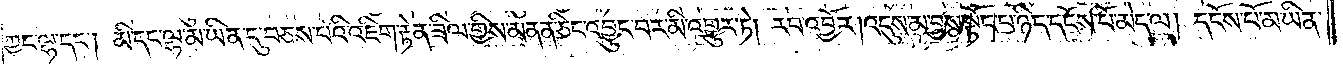ཀྱང་ལྷ་དང༌། མི་དང་ལྷ་མ་ཡིན་དུ་བཅས་པའི་འཇིག་རྟེན་ཟིལ་གྱིས་མནན་ཅིང་འབྱུང་བར་མི་འགྱུར་ཏེ། རབ་འབྱོར། འདུས་མ་བྱས་སྟོང་པ་ཉིད་དངོས་པོ་མེད་ལ། དངོས་པོ་མ་ཡིན་
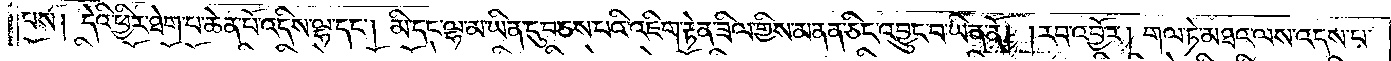པས། དེའི་ཕྱིར་ཐེག་པ་ཆེན་པོ་འདིས་ལྷ་དང༌། མི་དང་ལྷ་མ་ཡིན་དུ་བཅས་པའི་འཇིག་རྟེན་ཟིལ་གྱིས་མནན་ཅིང་འབྱུང་བ་ཡིན་ནོ། །རབ་འབྱོར། གལ་ཏེ་མཐའ་ལས་འདས་པ་
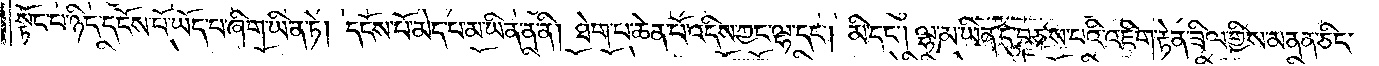སྟོང་པ་ཉིད་དངོས་པོ་ཡོད་པ་ཞིག་ཡིན་ཏེ། དངོས་པོ་མེད་པ་མ་ཡིན་ན་ནི། ཐེག་པ་ཆེན་པོ་འདིས་ཀྱང་ལྷ་དང༌། མི་དང༌། ལྷ་མ་ཡིན་དུ་བཅས་པའི་འཇིག་རྟེན་ཟིལ་གྱིས་མནན་ཅིང་
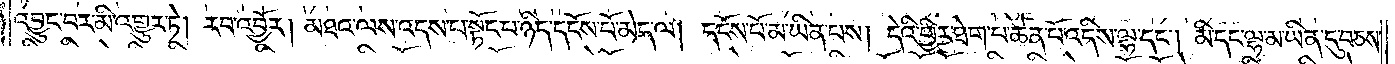འབྱུང་བར་མི་འགྱུར་ཏེ། རབ་འབྱོར། མཐའ་ལས་འདས་པ་སྟོང་པ་ཉིད་དངོས་པོ་མེད་ལ། དངོས་པོ་མ་ཡིན་པས། དེའི་ཕྱིར་ཐེག་པ་ཆེན་པོ་འདིས་ལྷ་དང༌། མི་དང་ལྷ་མ་ཡིན་དུ་བཅས་
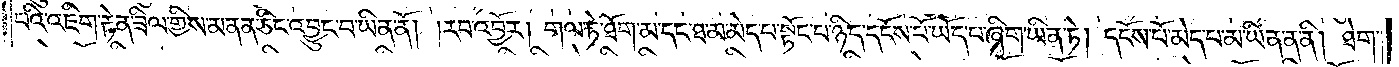པའི་འཇིག་རྟེན་ཟིལ་གྱིས་མནན་ཅིང་འབྱུང་བ་ཡིན་ནོ། །རབ་འབྱོར། གལ་ཏེ་ཐོག་མ་དང་ཐ་མ་མེད་པ་སྟོང་པ་ཉིད་དངོས་པོ་ཡོད་པ་ཞིག་ཡིན་ཏེ། དངོས་པོ་མེད་པ་མ་ཡིན་ན་ནི། ཐེག་
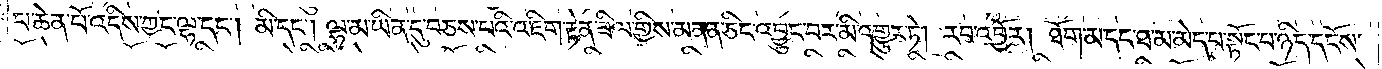པ་ཆེན་པོ་འདིས་ཀྱང་ལྷ་དང༌། མི་དང༌། ལྷ་མ་ཡིན་དུ་བཅས་པའི་འཇིག་རྟེན་ཟིལ་གྱིས་མནན་ཅིང་འབྱུང་བར་མི་འགྱུར་ཏེ། རབ་འབྱོར། ཐོག་མ་དང་ཐ་མ་མེད་པ་སྟོང་པ་ཉིད་དངོས་
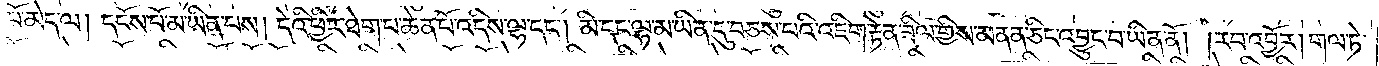པོ་མེད་ལ། དངོས་པོ་མ་ཡིན་པས། དེའི་ཕྱིར་ཐེག་པ་ཆེན་པོ་འདིས་ལྷ་དང༌། མི་དང་ལྷ་མ་ཡིན་དུ་བཅས་པའི་འཇིག་རྟེན་ཟིལ་གྱིས་མནན་ཅིང་འབྱུང་བ་ཡིན་ནོ། །རབ་འབྱོར། གལ་ཏེ་
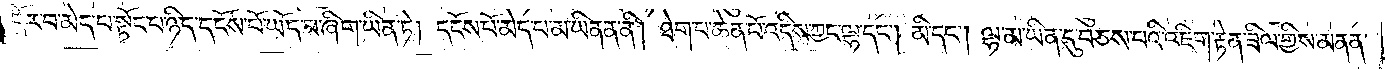དོར་བ་མེད་པ་སྟོང་པ་ཉིད་དངོས་པོ་ཡོད་པ་ཞིག་ཡིན་ཏེ། དངོས་པོ་མེད་པ་མ་ཡིན་ན་ནི། ཐེག་པ་ཆེན་པོ་འདིས་ཀྱང་ལྷ་དང༌། མི་དང༌། ལྷ་མ་ཡིན་དུ་བཅས་པའི་འཇིག་རྟེན་ཟིལ་གྱིས་མནན་
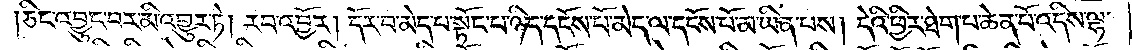ཅིང་འབྱུང་བར་མི་འགྱུར་ཏེ། རབ་འབྱོར། དོར་བ་མེད་པ་སྟོང་པ་ཉིད་དངོས་པོ་མེད་ལ་དངོས་པོ་མ་ཡིན་པས། དེའི་ཕྱིར་ཐེག་པ་ཆེན་པོ་འདིས་ལྷ་
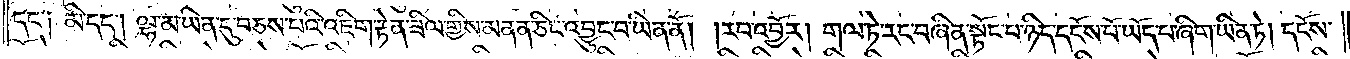དང༌། མི་དང༌། ལྷ་མ་ཡིན་དུ་བཅས་པའི་འཇིག་རྟེན་ཟིལ་གྱིས་མནན་ཅིང་འབྱུང་བ་ཡིན་ནོ། །རབ་འབྱོར། གལ་ཏེ་རང་བཞིན་སྟོང་པ་ཉིད་དངོས་པོ་ཡོད་པ་ཞིག་ཡིན་ཏེ། དངོས་
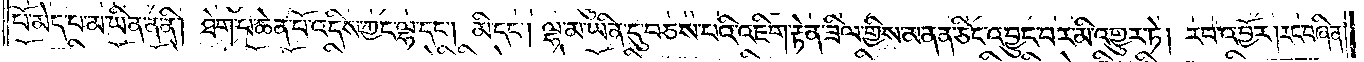པོ་མེད་པ་མ་ཡིན་ན་ནི། ཐེག་པ་ཆེན་པོ་འདིས་ཀྱང་ལྷ་དང༌། མི་དང༌། ལྷ་མ་ཡིན་དུ་བཅས་པའི་འཇིག་རྟེན་ཟིལ་གྱིས་མནན་ཅིང་འབྱུང་བར་མི་འགྱུར་ཏེ། རབ་འབྱོར། རང་བཞིན་
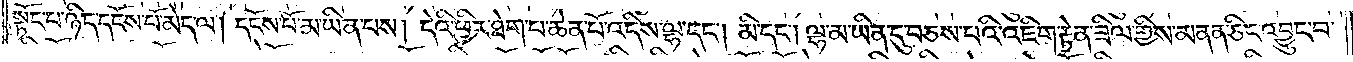སྟོང་པ་ཉིད་དངོས་པོ་མེད་ལ། དངོས་པོ་མ་ཡིན་པས། དེའི་ཕྱིར་ཐེག་པ་ཆེན་པོ་འདིས་ལྷ་དང༌། མི་དང༌། ལྷ་མ་ཡིན་དུ་བཅས་པའི་འཇིག་རྟེན་ཟིལ་གྱིས་མནན་ཅིང་འབྱུང་བ་
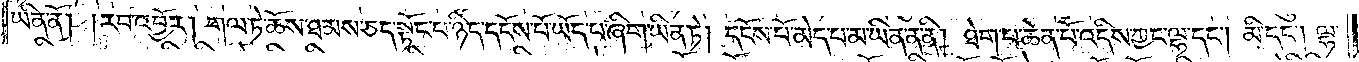ཡིན་ནོ། །རབ་འབྱོར། གལ་ཏེ་ཆོས་ཐམས་ཅད་སྟོང་པ་ཉིད་དངོས་པོ་ཡོད་པ་ཞིག་ཡིན་ཏེ། དངོས་པོ་མེད་པ་མ་ཡིན་ན་ནི། ཐེག་པ་ཆེན་པོ་འདིས་ཀྱང་ལྷ་དང༌། མི་དང༌། ལྷ་
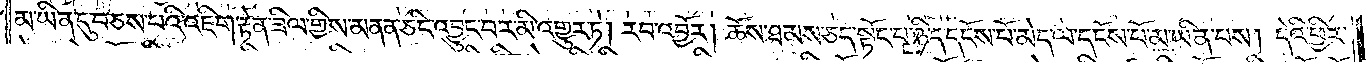མ་ཡིན་དུ་བཅས་པའི་འཇིག་རྟེན་ཟིལ་གྱིས་མནན་ཅིང་འབྱུང་བར་མི་འགྱུར་ཏེ། རབ་འབྱོར། ཆོས་ཐམས་ཅད་སྟོང་པ་ཉིད་དངོས་པོ་མེད་ལ་དངོས་པོ་མ་ཡིན་པས། དེའི་ཕྱིར་
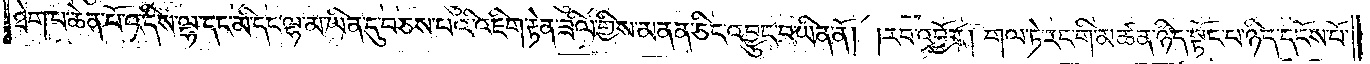ཐེག་པ་ཆེན་པོ་འདིས་ལྷ་དང་མི་དང་ལྷ་མ་ཡིན་དུ་བཅས་པའི་འཇིག་རྟེན་ཟིལ་གྱིས་མནན་ཅིང་འབྱུང་བ་ཡིན་ནོ། །རབ་འབྱོར། གལ་ཏེ་རང་གི་མཚན་ཉིད་སྟོང་པ་ཉིད་དངོས་པོ་
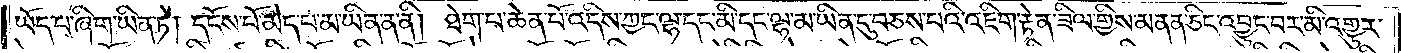ཡོད་པ་ཞིག་ཡིན་ཏེ། དངོས་པོ་མེད་པ་མ་ཡིན་ན་ནི། ཐེག་པ་ཆེན་པོ་འདིས་ཀྱང་ལྷ་དང་མི་དང་ལྷ་མ་ཡིན་དུ་བཅས་པའི་འཇིག་རྟེན་ཟིལ་གྱིས་མནན་ཅིང་འབྱུང་བར་མ་འགྱུར་
